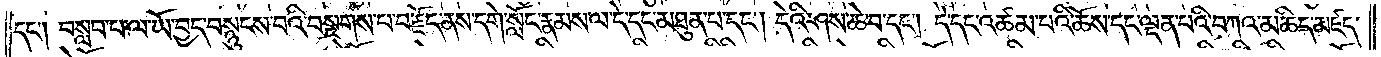དང༌། བསླབ་པ་ལ་ཡོ་བྱད་བསྙུངས་པའི་བསྔགས་པ་བརྗོད་ནས་དགེ་སློང་རྣམས་ལ་དེ་དང་མཐུན་པ་དང༌། དེའི་ཤས་ཆེ་བ་དང༌། དེ་དང་འཚམ་པའི་ཆོས་དང་ལྡན་པའི་བཀའ་མཆིད་མཛད་
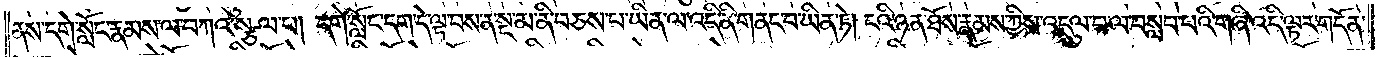ནས་དགེ་སློང་རྣམས་ལ་བཀའ་སྩལ་པ། དགེ་སློང་དག་དེ་ལྟ་བས་ན་སྔ་མ་ནི་བཅས་པ་ཡིན་ལ་འདི་ནི་གནང་བ་ཡིན་ཏེ། ངའི་ཉན་ཐོས་རྣམས་ཀྱིས་འདུལ་བ་ལ་བསླབ་པའི་གཞི་འདི་ལྟར་གདོན་
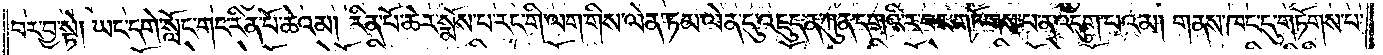བར་བྱ་སྟེ། ཡང་དགེ་སློང་གང་རིན་པོ་ཆེའམ། རིན་པོ་ཆེར་སྨོས་པ་རང་གི་ལག་གིས་ལེན་ཏམ་ལེན་དུ་འཇུད་ན་ཀུན་དགའི་ར་བར་གཏོགས་པ་ན་འདུག་པའམ། གནས་ཁང་དུ་གཏོགས་པ་
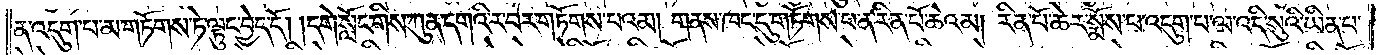ན་འདུག་པ་མ་གཏོགས་ཏེ་ལྟུང་བྱེད་དོ། །དགེ་སློང་གིས་ཀུན་དགའི་ར་བར་གཏོགས་པའམ། གནས་ཁང་དུ་གཏོགས་པ་ན་རིན་པོ་ཆེའམ། རིན་པོ་ཆེར་སྨོས་པ་འདུག་པ་ལ་འདི་སུའི་ཡིན་པ་
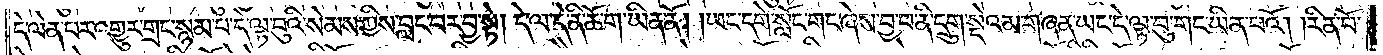དེ་ལེན་པར་འགྱུར་གྲང་སྙམ་པ་དེ་ལྟ་བུའི་སེམས་ཀྱིས་བླང་བར་བྱ་སྟེ། དེ་ལ་དེ་ནི་ཆོ་ག་ཡིན་ནོ། །ཡང་དགེ་སློང་གང་ཞེས་བྱ་བ་ནི་དྲུག་སྡེའམ་གཞན་ཡང་དེ་ལྟ་བུ་གང་ཡིན་པའོ། །རིན་པོ་
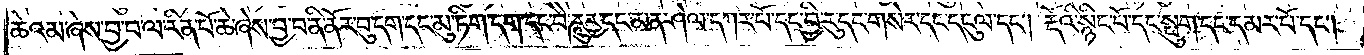ཆེའམ་ཞེས་བྱ་བ་ལ་རིན་པོ་ཆེ་ཞེས་བྱ་བ་ནི་ནོར་བུ་དག་དང་མུ་ཏིག་དག་དང་བཻ་ཌཱུརྱ་དང་མན་ཤེལ་དཀར་པོ་དང་བྱི་རུ་དང་གསེར་དང་དངུལ་དང༌། རྡོའི་སྙིང་པོ་དང་སྤུག་དང་དམར་པོ་དང༌།
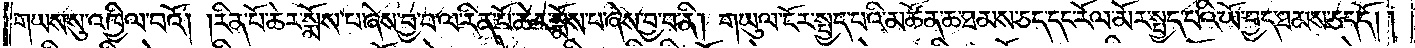གཡས་སུ་འཁྱིལ་བའོ། །རིན་པོ་ཆེར་སྨོས་པ་ཞེས་བྱ་བ་ལ་རིན་པོ་ཆེར་སྨོས་པ་ཞེས་བྱ་བ་ནི། གཡུལ་ངོར་སྤྱད་པའི་མཚོན་ཆ་ཐམས་ཅད་དང་རོལ་མོར་སྤྱད་པའི་ཡོ་བྱད་ཐམས་ཅད་དོ། །
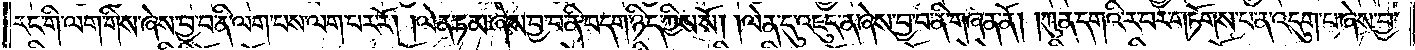རང་གི་ལག་གིས་ཞེས་བྱ་བ་ནི་ལག་པས་ལག་པར་རོ། །ལེན་ཏམ་ཞེས་བྱ་བ་ནི་བདག་ཉིད་ཀྱིས་སོ། །ལེན་དུ་འཇུད་ན་ཞེས་བྱ་བ་ནི་གཞན་ནོ། །ཀུན་དགའི་ར་བར་གཏོགས་པ་ན་འདུག་པ་ཞེས་བྱ་
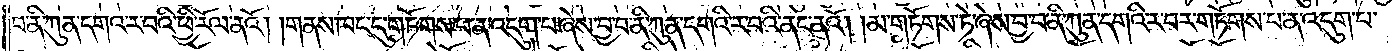བ་ནི་ཀུན་དགའ་ར་བའི་ཕྱི་རོལ་ནའོ། །གནས་ཁང་དུ་གཏོགས་པ་ན་འདུག་པ་ཞེས་བྱ་བ་ནི་ཀུན་དགའི་ར་བའི་ནང་ནའོ། །མ་གཏོགས་ཏེ་ཞེས་བྱ་བ་ནི་ཀུན་དགའི་ར་བར་གཏོགས་པ་ན་འདུག་པ་
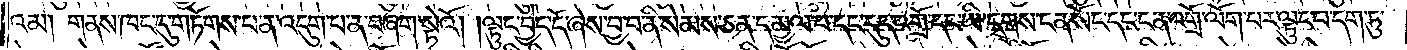འམ། གནས་ཁང་དུ་གཏོགས་པ་ན་འདུག་པ་ན་བཞག་སྟེའོ། །ལྟུང་བྱེད་དོ་ཞེས་བྱ་བ་ནི་སེམས་ཅན་དམྱལ་བ་དང་དུད་འགྲོ་དང་ཡི་དྭགས་ངན་སོང་དང་ངན་འགྲོ་ལོག་པར་ལྟུང་བ་དག་ཏུ་
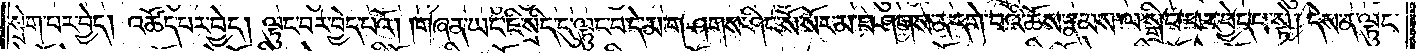སྲེག་པར་བྱེད། འཚོད་པར་བྱེད། ལྟུང་བར་བྱེད་པའོ། །གཞན་ཡང་ཇི་སྲིད་དུ་ལྟུང་བ་དེ་མ་བཤགས་ཤིང་སོ་སོར་མ་བཤགས་ན་དགེ་བའི་ཆོས་རྣམས་ལ་སྒྲིབ་པར་བྱེད་པ་སྟེ། དེས་ན་ལྟུང་
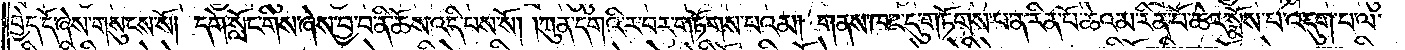བྱེད་དོ་ཞེས་གསུངས་སོ། དགེ་སློང་གིས་ཞེས་བྱ་བ་ནི་ཆོས་འདི་པས་སོ། །ཀུན་དགའི་ར་བར་གཏོགས་པའམ། གནས་ཁང་དུ་གཏོགས་པ་ན་རིན་པོ་ཆེའམ་རིན་པོ་ཆེར་སྨོས་པ་འདུག་པ་ལ་
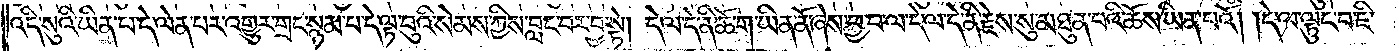འདི་སུའི་ཡིན་པ་དེ་ལེན་པར་འགྱུར་གྲང་སྙམ་པ་དེ་ལྟ་བུའི་སེམས་ཀྱིས་བླང་བར་བྱ་སྟེ། དེ་ལ་དེ་ནི་ཆོ་ག་ཡིན་ནོ་ཞེས་བྱ་བ་ལ་དེ་ལ་དེ་ནི་རྗེས་སུ་མཐུན་པའི་ཆོས་ཡིན་པའོ། །དེ་ལ་ལྟུང་བ་ཇི་
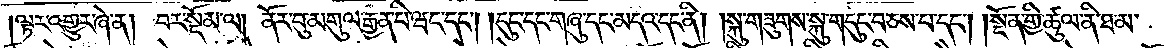ལྟར་འགྱུར་ཞེ་ན། བར་སྡོམ་ལ། ནོར་བུ་མགུལ་རྒྱན་པི་ཝང་དང༌། དུང་དང་གཞུ་དང་མདའ་དང་ནི། །སྐུ་གཟུགས་སྐུ་གདུང་བཅས་པ་དང༌། །སྔོན་གྱི་ཚུལ་ནི་ཐ་མ་
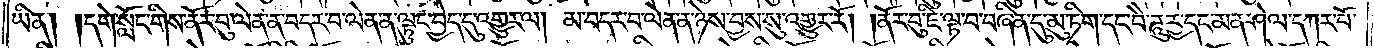ཡིན། །དགེ་སློང་གིས་ནོར་བུ་ལེན་ན་བདར་བ་ལེན་ན་ལྟུང་བྱེད་དུ་འགྱུར་ལ། མ་བདར་བ་ལེན་ན་ཉེས་བྱས་སུ་འགྱུར་རོ། །ནོར་བུ་ཇི་ལྟ་བ་བཞིན་དུ་མུ་ཏིག་དང་བཻ་ཌཱུཪྻ་དང་མན་ཤེལ་དཀར་པོ་
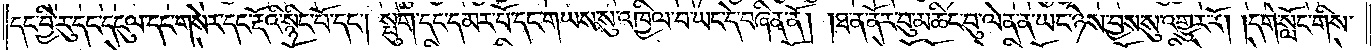དང་བྱི་རུ་དང་དངུལ་དང་གསེར་དང་རྡོའི་སྙིང་པོ་དང༌། སྤུག་དང་དམར་པོ་དང་གཡས་སུ་འཁྱིལ་བ་ཡང་དེ་བཞིན་ནོ། །ཐ་ན་ནོར་བུ་མཆིང་བུ་ལེན་ན་ཡང་ཉེས་བྱས་སུ་འགྱུར་རོ། །དགེ་སློང་གིས་
